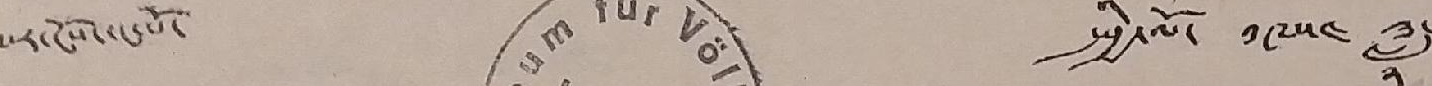པར་ངོས་དང་པོ་ སྤྱི་ལོ་ ༡༩༥༤ ཟླ་
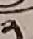༢
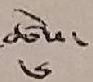ཚེས་
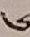༦
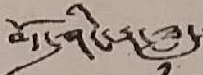བོད་ཤིང་རྟ་ཟླ་
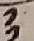༡༡
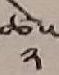ཚེས་
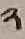༢
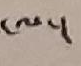ལ་།
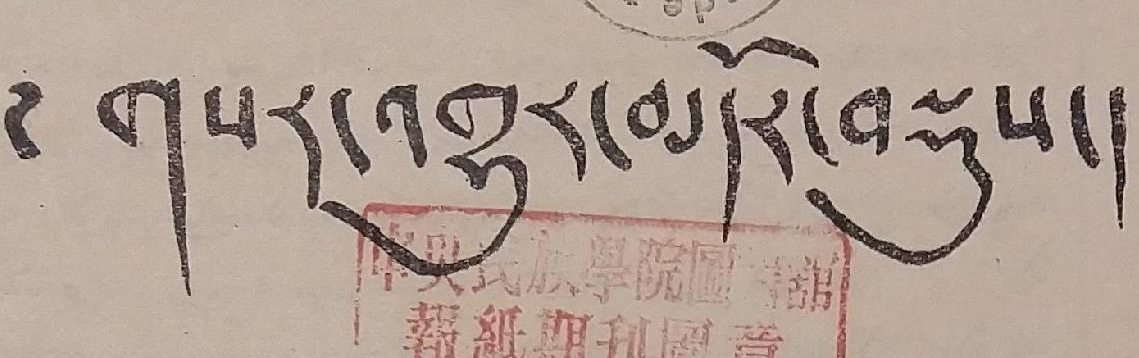༄ གསར་འགྱུར་མདོར་བསྡུས་།
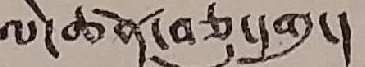ལེ་ཚན་བཅུ་དགུ་།
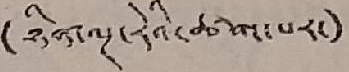(ཉིན་ལྔ་རེའི་ཚག་པར་)
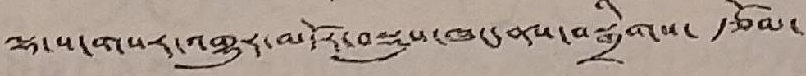ལྷ་ས་གསར་འགྱུར་མདོར་བསྡུས་ཁང་ནས་བསྒྲིགས་ རྩོམ་
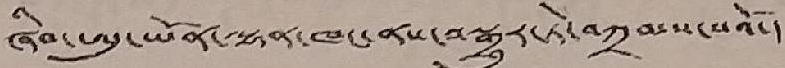ཞིབ་ཨུ་ཡོན་ལྷན་ཁང་ནས་བསྒྱུར་ཏེ་བཀྲམས་པའོ་།
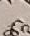ཚུལ་
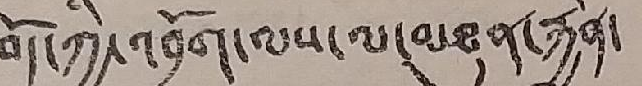བོད་ཀྱི་འབྲོག་ལས་ལ་མཐུན་རྐྱེན་
